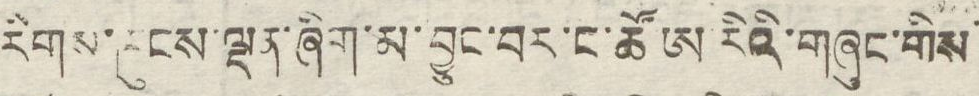རིགས་ཁུངས་ལྡན་ཞིག་མ་བྱུང་བར་ང་ཚོ ཨ་རིའི་གཞུང་གིས་
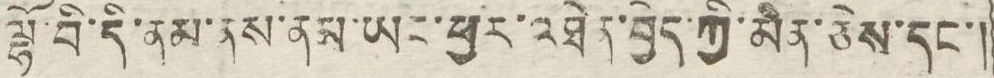ལྷོ་བ་དི་ནམ་ནས་ནམ་ཡང་ཕྱིར་འཐེན་བྱེད་ཀྱི་མིན་ཅེས་དང་།
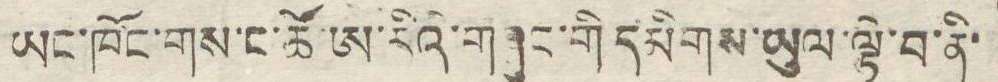ཡང་ཁོང་གས་ང་ཚོ་ཨ་རིའི་གཞུང་གི དམིགས་ཡུལ་ལྟེ་བ་ནི་
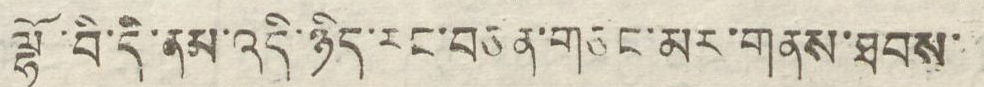ལྷོ་བི་དི་ནམ་འདི་ཉིད་རང་བཙན་གཙང་མར་གནས་ཐབས་
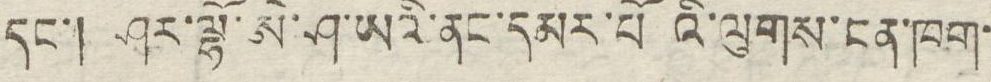དང་། ཤར་ལྷོ་ཨེ་ཤ་ཡའི་ནང་དམར་པོ འི་ལུགས་ངན་ཁག་
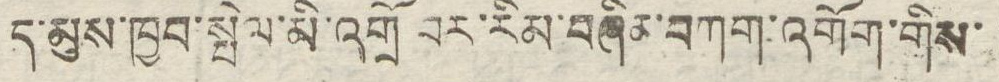ད་མུས་ཁྱབ་སྤེལ་མི་འགྲོ བར་རིམ་བཞིན་བཀག་འགོག་གིས་
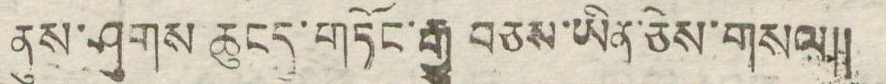ནུས་ཤུགས ཆུངདུ་གཏོང་རྒྱུ བཅས་ཡིན་ཅེས་གསལ།།
